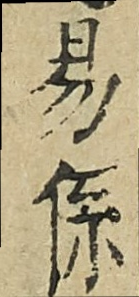易係
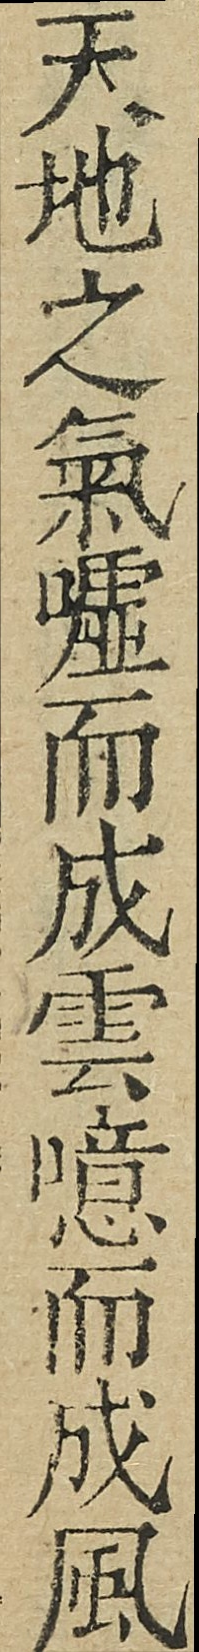天地之氣嘘而成雲噫而成風
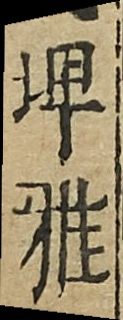埤雅
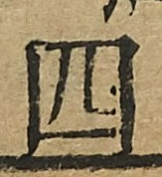四
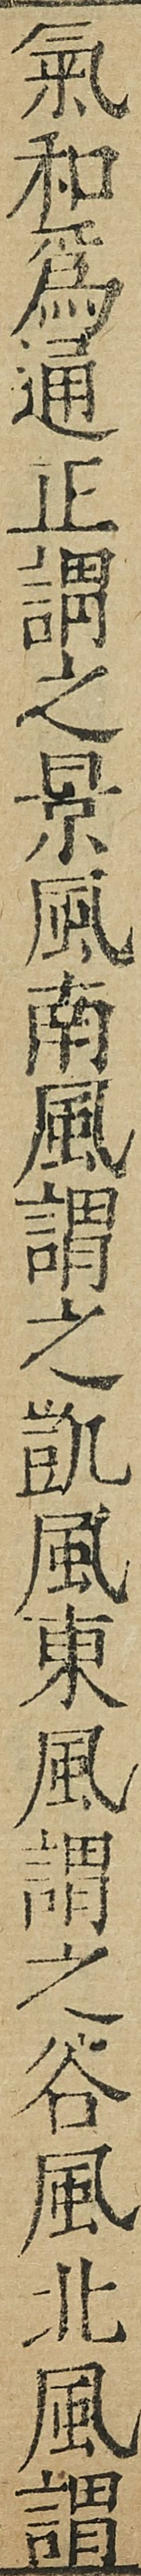氣和爲通正謂之景風南風謂之凱風東風謂之谷風北風謂
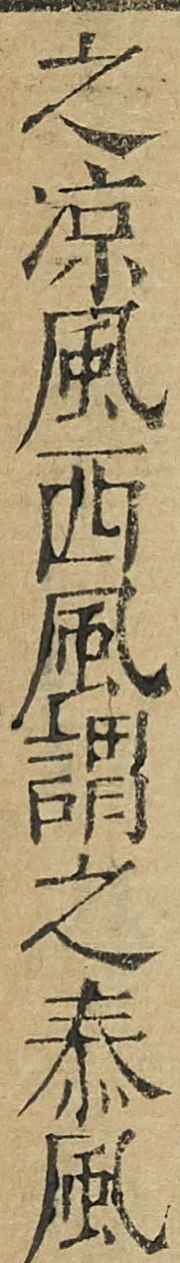之凉風西風謂之泰風
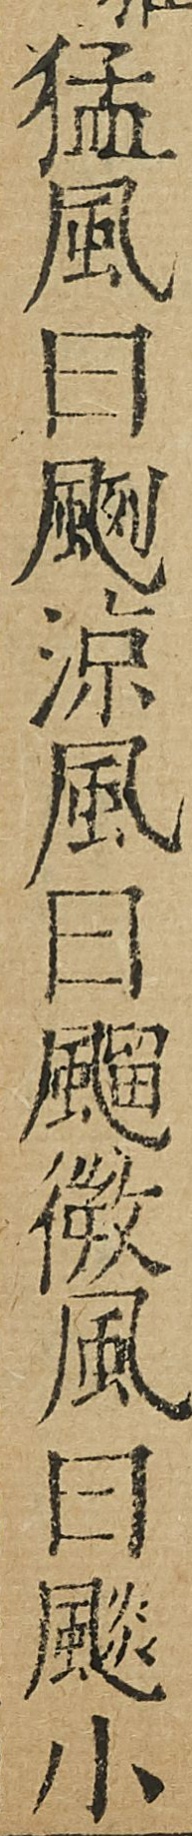猛風曰烈涼風日飗微風日飚小
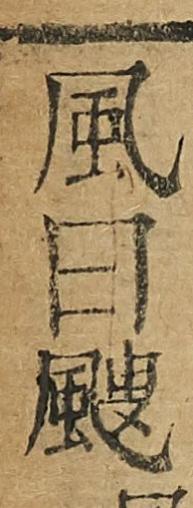風曰颼
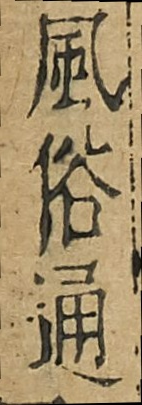風俗通
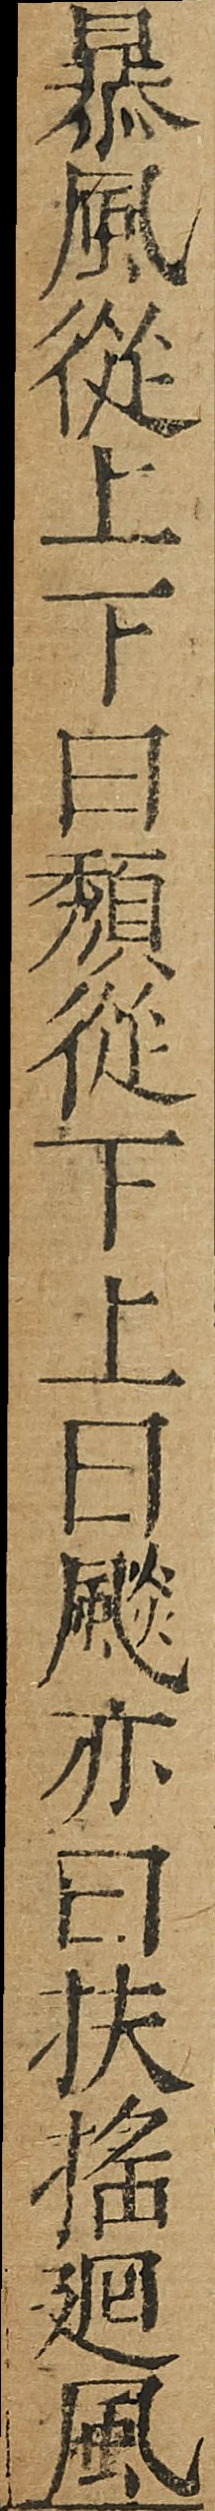暴風從上下曰頺從下上曰飚亦曰扶搖廻風
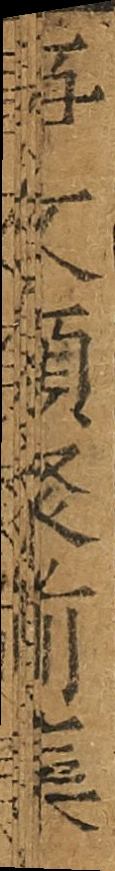事文類聚前集
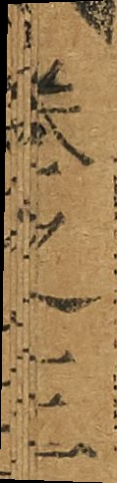卷之三
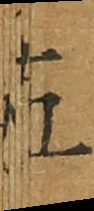五
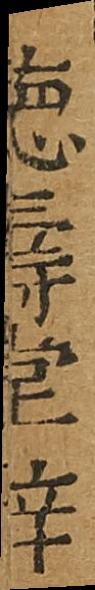德壽堂梓
